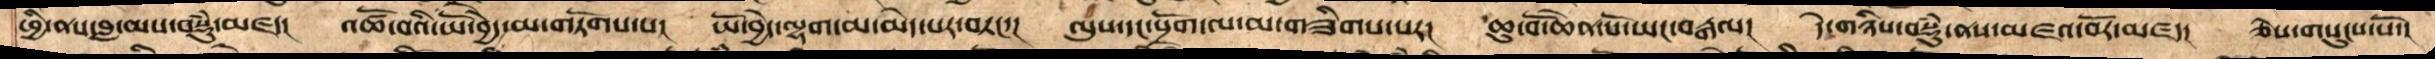ཕྱི་ནས་བླ་མས་བསྡུྃ་མཛད།   འཚོ་བའི་ཡོ་བྱེད་མ་གཏོགས་པ།  ཡོ་བྱེད་ལྷག་མ་མེད་པར་བཏང་།  ལུས་དང་སྲོག་ལ་མ་གཟིགས་པར།  ཆུ་བོ་ཆེན་པོ་ཡང་བརྒལ།  དེ་གཉིས་བསྡུྃ་ནས་མཛའ་བོར་མཛད།  ཅེས་གསུངས་སོ་།
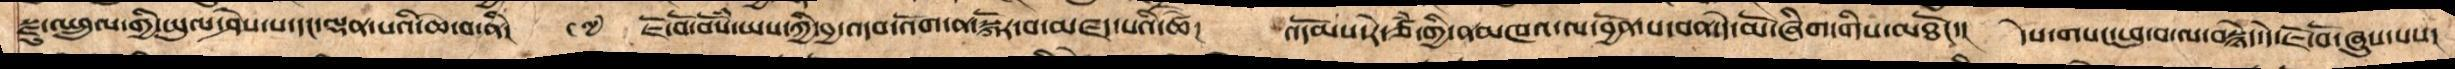སྫུ་འཕྲུལ་གྱི་ཡུལ་ཤེས་པ་དང་ལྡན་པའི་ཆེ་བ་ནི།   ༩༧  ཇོ་བོ་བསོཾ་ཡས་ཀྱི་བྱ་འདབ་འོག་ན་སྐོར་བ་མཛད་པའི་ཚེ།  འདོམས་རེ་ཙཾ་གྱི་ནམཁའ་ལ་བྱོན་པ་བན་དེ་མོ་ཞིག་གིས་མཐོང་། དེས་གསང་ཕུ་བ་ལ་བསྙེད་དེ་ཇོ་བོ་ཞུས་པས།
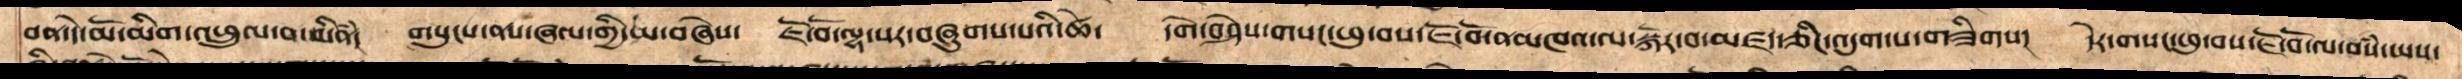བན་དེ་མོ་མིག་འཕྲུལ་བ་མིནཾ།  གསུངས་ནས་ཞལ་གྱིས་མ་བཞེས། ཇོ་བོ་ལྷ་སར་བཞུགས་པའི་ཚེ་ དགེ་བཤེས་གསང་ཕུ་བས་ཇོ་བོ་ནམཁའ་ལ་སྐོར་བ་མཛད་ཅིང་འདུག་པ་གཟིགས། དེར་གསང་ཕུ་བས་ཇོ་བོ་ལ་བསྃ་ཡས་
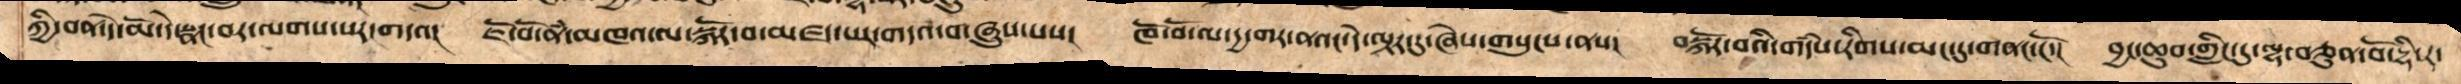ཀྱི་བན་དེ་མོ་དེ་སྣང་བར་ལགས་པར་གདའ། ཇོ་བོ་ནཾ་མཁའ་ལ་སྐོར་བ་མཛད་པར་གདའ་བ་ཞུས་པས།  ཁོ་བོ་ལ་དྱ་གར་ནའང་དེ་ལྟར་དུ་ཞེས་གསུངས་ནས།  བསྐོར་བའི་གདསྃ་རིགས་མང་དུ་གནང་ངོ་།  བྱང་ཆུབ་གླིང་དུ་ལྷ་བཅུན་བོ་དྷི་ར་་
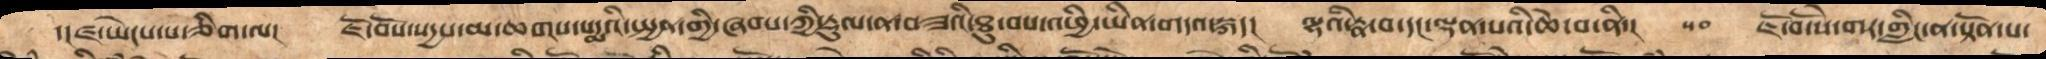་།ཛ་ཡེངས་པ་ཅིག་ལ།  ཇོ་བོས་སདྱས་མ་ཆགས་པདྨའི་སྤྱན་གྱི་ཞབསཀྱི་རྡུལ་ན་བཟའི་ཐུ་བས་འཕྱི་ཡིན་གདའ་སྐད། ལྷའི་རྣ་བ་དང་ལྡན་པའི་ཆེ་བ་ནི།  ༥༠  ཇོ་བོ་སེ་གར་གླིང་ན་སྟོན་པ་
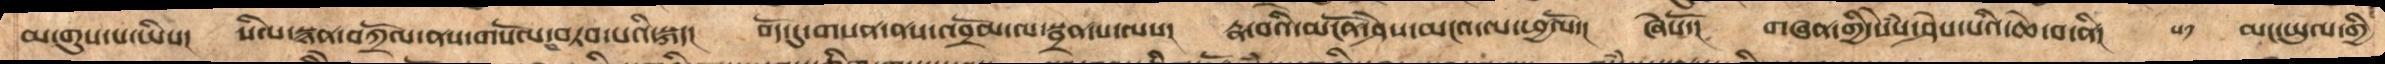མ་གུས་པ་ཡིས།  སིལ་སྙན་བཀྲོལ་ནས་གསོལ་བ་བཏབ་པའི་སྐད།   བོད་དུ་གསན་ནས་འབྲོམ་ལ་སྦྲན་པ་ལས།  རྣ་བའི་མངོན་ཤེས་མངའ་ལ་ཕྱཚལོ་།   ཞེསོ་།   གཞན་གྱི་སེཾས་ཤེས་པའི་ཆེ་བ་ནི།  ༥༡  མང་ཡུལ་གྱི
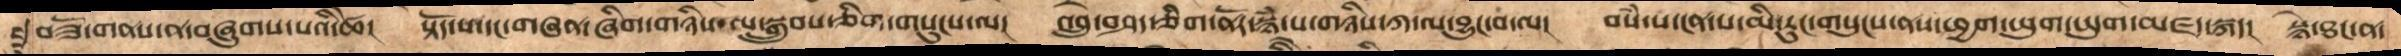བཟོ་གནས་ན་བཞུགས་པའི་ཚེ། སྟོད་པ་དང་གཞན་ཞིག་གཉིས་ལ་སྒྲུབས་ཅིག་གསུངས་ལ། འབྲུ་བཤད་ཅིག་ནོར་སྙཾ་པ་གཉིས་ཀ་ལ་བྱུང་བ་ལ། བསཾ་པ་ངན་པ་མི་རུང་གསུངས་ནས་ཕྱག་ཡུག་ཡུག་མཛད་སྐད། སྙེ་ཐང་ན་
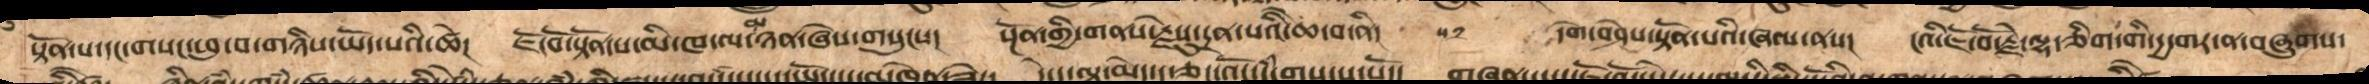སྟོན་པ་དང་གསང་ཕུ་བ་གཉིས་ཡོད་པའི་ཚེ།   ཇོ་བོ་སྟོན་པ་མི་ཁ་ལ་མ་ཉན་ཞེས་གསུངས།   སྔོན་གྱི་གནས་རྗེསུ་དྲན་པའི་ཆེ་བ་ནི།  ༥༢  དགེ་བཤེས་སྟོན་པའི་ཞལ་ནས།  ངའི་ཇོ་བོ་རྗེ་ལྷ་ཅིག་གི་དྱ་གར་ན་བཞུགས་
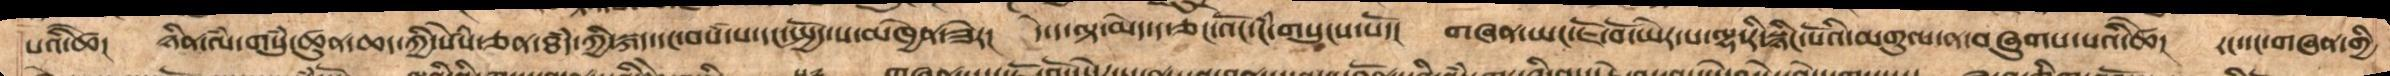པའི་ཚེ།  ཉིན་ལཾ་གསུཾ་ཚུན་ཆད་ཀྱི་སེཾས་ཅན་ཐཾད་ཀྱི་སྐད་དང་བསཾ་པ་དང་སྤྱོད་པ་མཁྱེན་ཟེར།   དེ་ད་ལྟ་མེད་ད་ཅང་འོང་ངཾ་གསུངས་སོ་།  གཞན་ཡང་ཇོ་བོ་ཡེར་པ་ལྷ་རི་སྙིང་པོའི་མགུལ་ན་བཞུགས་པའི་ཚེ།  རང་དང་གཞན་གྱི
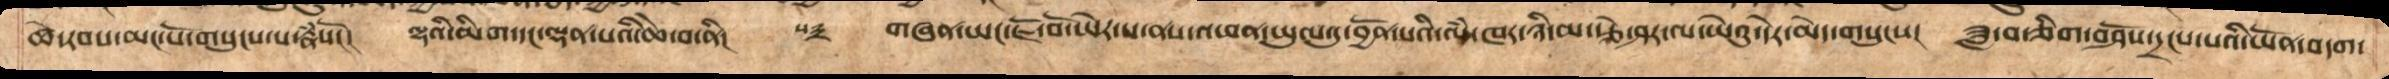ཚེ་རབས་མང་པོ་གསུངས་པ་རྣཾསོ།  ལྷའི་མིག་དང་ལྡན་པའི་ཆེ་བ་ནི།  ༥༣  གཞན་ཡང་ཇོ་བོ་ཡེར་པ་ནས་འཕན་ཡུལ་དུ་བྱོན་པའི་ལཾ་ཁར་ཉི་མ་རྩེ་ཤར་ལ་ཡེའུ་དེར་མེད་གསུངས།   ཟླ་བ་ཅིག་བཤོས་དྲངས་པའི་ཡོན་བདག་
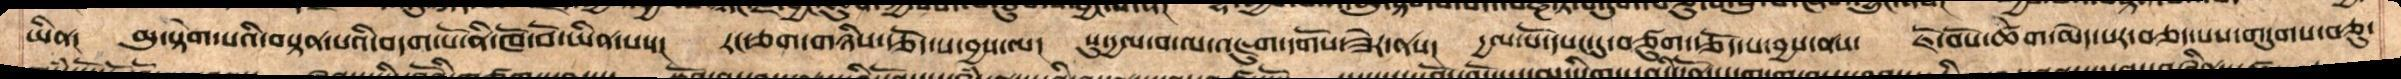ཡིན།  མུ་སྟེགས་པའི་བསྟན་པའིབདག་པོ་ནི་ཁོ་བོ་ཡིན་པས།  རང་ཅག་གཉིས་རྩོད་པ་བྱས་ལ།   སུ་དྱལ་བ་ལ་འཇུག་དགོས་ཟེར་ནས།   རྒྱལ་པོ་དཔང་དུ་བཙུག་རྩོད་པ་བྱས་ནས།   ཇོ་བོས་ཚེག་མེད་པར་ཚར་བཅད་པས་གདུགས་བཅུ་
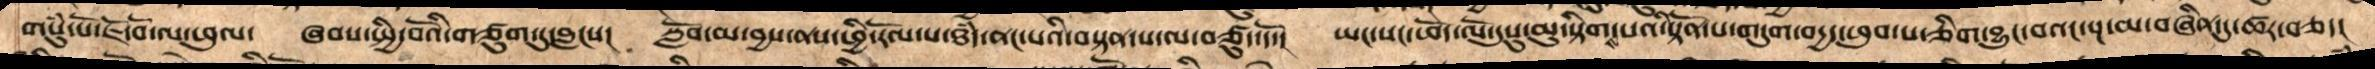གསུཾ་པོ་ཇོ་བོ་ལ་ཕུལ།  ཞབས་སྤྱི་བོའི་གཙུག་དུ་བླངས།   སློབ་མ་བྱས་ནས་ཕྱི་རོལ་པ་ཐཾད་ནང་པའི་བསྟན་པ་ལ་བཙུད་དོ་།   ཡང་སང་ཕོད་ལོ་དུསུ་མུ་སྟིགས་པའི་སྟོན་པ་གདུག་བདྱད་ཕུབ་པ་ཅིག་བྱུང་བའང་སྔ་མ་བཞིན་དུ་ཚར་བཅད།
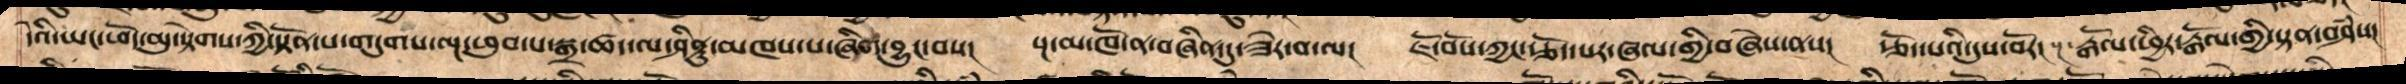དེའི་ཡང་ཕོད་མུ་སྟེགས་ཀྱི་སྟོན་པ་གདུགས་ལྔ་ཕུབ་པ་སྒྲ་ཚད་ལ་ཤིནྟུ་མཁས་པ་ཞིག་བྱུང་བས།   སྔ་མ་ཁོ་ན་བཞིན་དུ་ཟེར་བ་ལ།  ཇོ་བོས་ཀྱང་རྩོད་པར་ཞལ་གྱི་བཞེས་ནས།   རྩོད་པའི་དུས་བོར།  སྔ་རྒོལ་ཕྱིར་རྒོལ་གྱི་སྟན་བཤཾས།
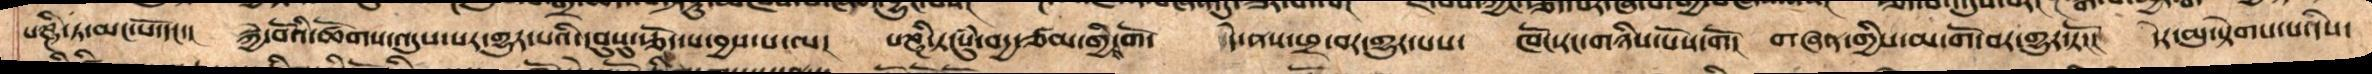པཎྜི་ཏ་མང་པོ་དང་། སྐྱེ་བོའི་ཚོགས་འདུས་པར་གྱུར་པའི་དབུསུ་རྩོད་པ་བྱས་པ་ལ། པཎྜི་ཏ་སུཾ་བདྱ་ཙམ་གྱིས་གོ་  དེ་ནས་ཕྲ་བར་གྱུར་པས་  ཁོང་རང་གཉིས་པོས་གོ་  གཞན་གྱིས་མི་གོ་བར་གྱུར་རོ།།།  དེར་མུ་སྟེགས་པའིས་
